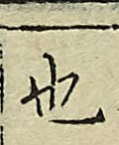也
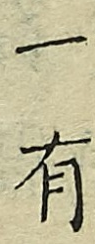一有
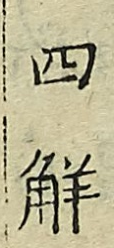四解
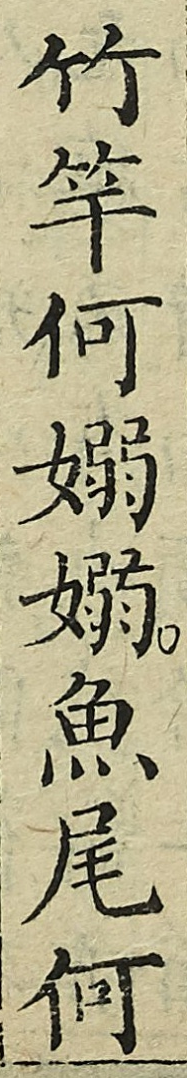竹竿何嫋嫋魚尾何
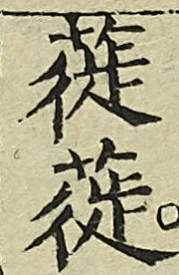蓰蓰
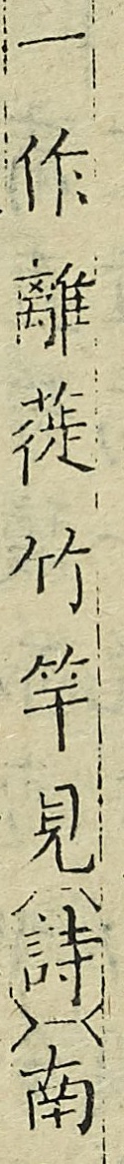一作離蓰竹竿見（詩）（南
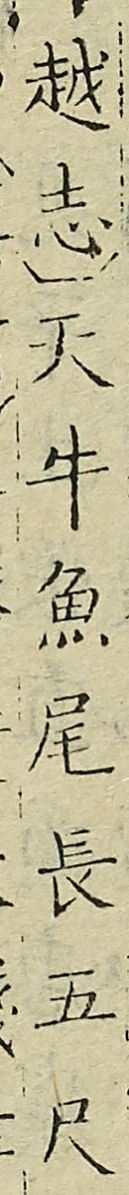越志）天牛魚尾長五尺
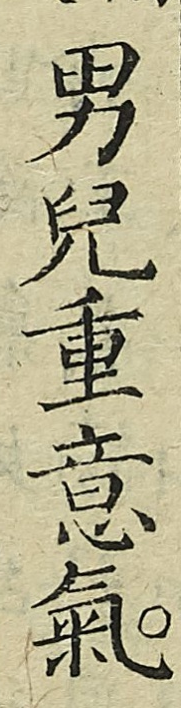男兒重意氣
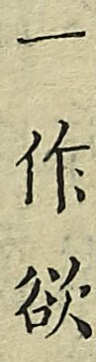一作欲
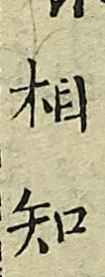相知
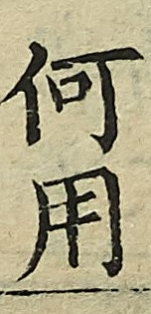何用
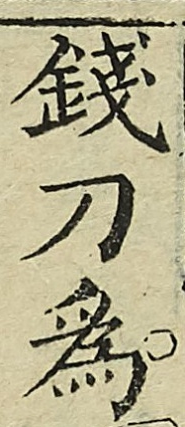錢刀為
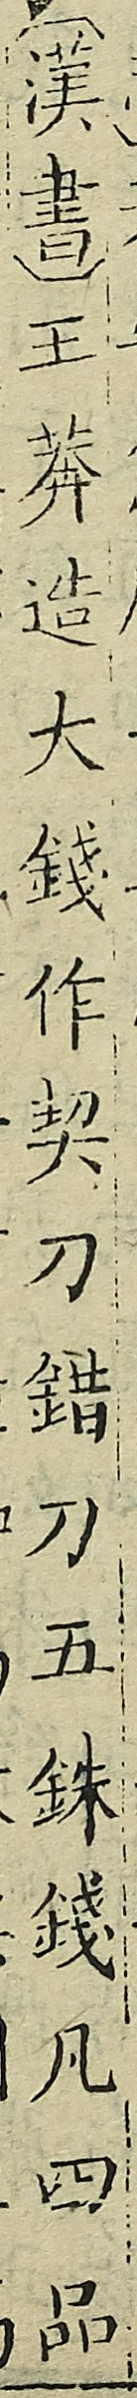（漢書）王莽造大錢作契刀五銖錢凡四品
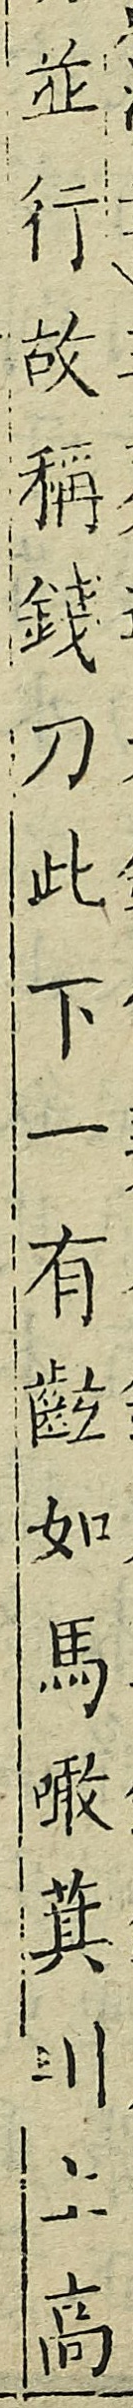並行故稱錢刀此下一有齹如馬噉萁川上高
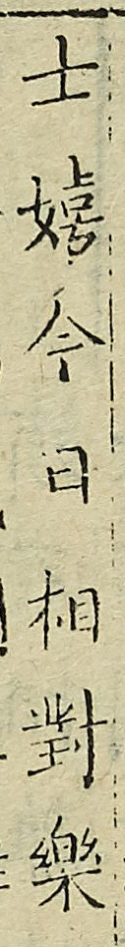士嬉今曰相對樂
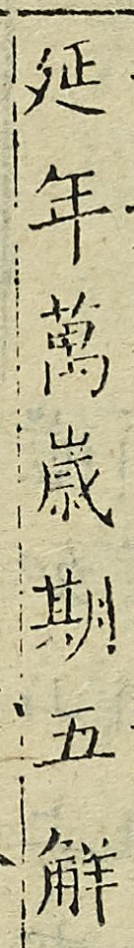延年萬歲期五解
